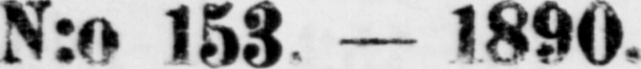N:o 153 — l890.
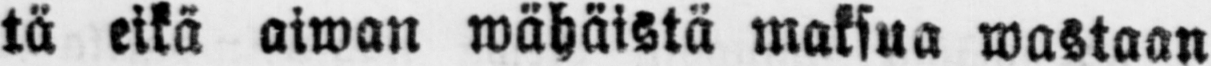tä eikä aiwan wähäistä maksua wastaan
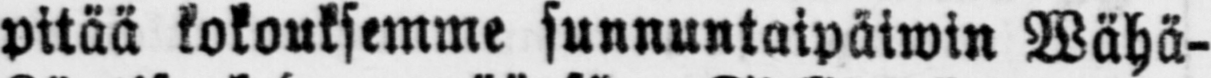pitää kokouksemme sunnuntaipäiwin Wähä-
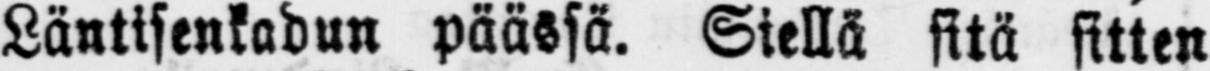Läntisenkadun päässä. Siellä sitä sitten
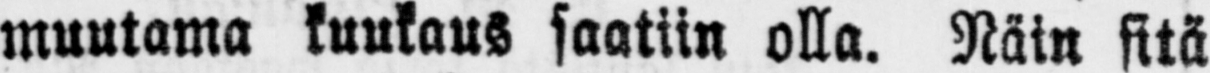muutama kuukaus saatiin olla. Näin sitä
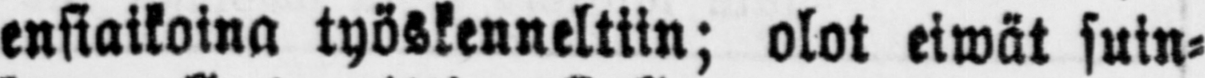ensiaikoina työskenneltiin; olot eiwät suin-
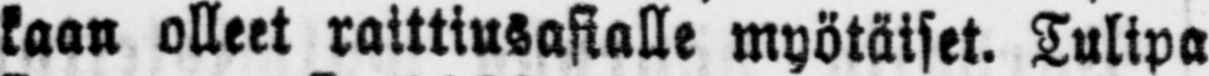kaan olleet raittiusasialle myötäiset. Tulipa
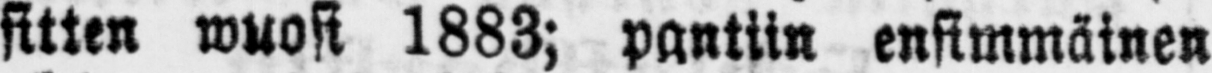sitten wuosi 1883; pantiin ensimmäinen
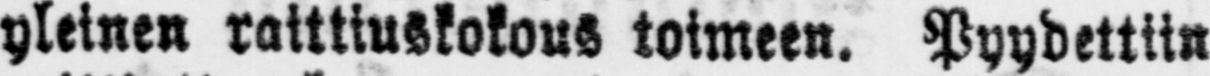yleinen raittiuskokous toimeen. Pyydettiin
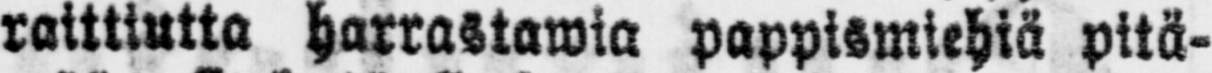raittiutta harrastawia pappismiehiä pitä-
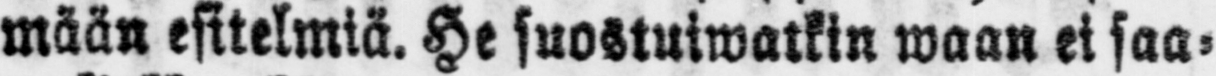mään esitelmiä. He suostuiwatkin waan ei saa-
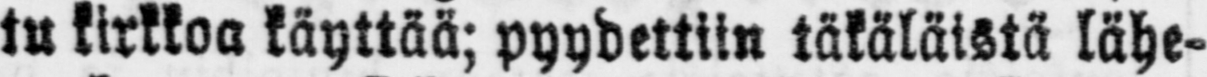tu kirkkoa käyttää; pyydettiin täkäläistä lähe-
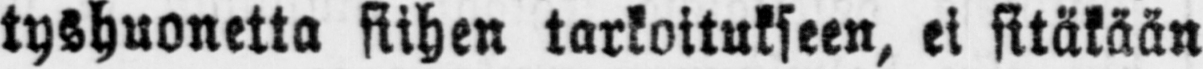tyshuonetta siihen tarkoitukseen, ei sitäkään
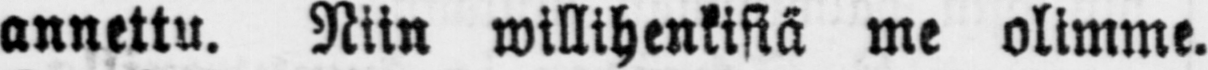annettu. Niin willihenkisiä me olimme.
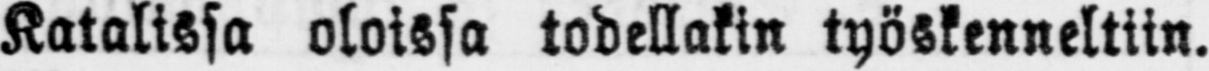Katalissa oloissa todellakin työskenneltiin.
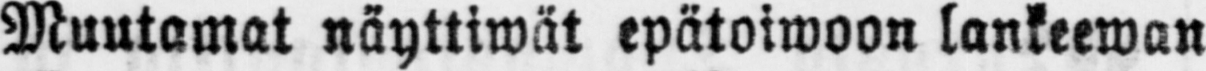Muutamat näyttiwät epätoiwoon lankeewan
